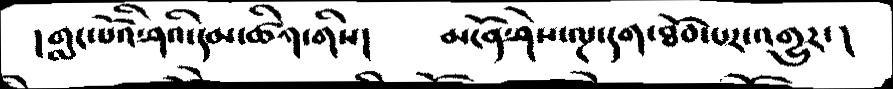། གླང་པོའི་ཤའི་དམ་ཚིག་གིས།   མངོན་ཤེས་ལྔ་དག་ཐོབ་པར་འགྱུར་།
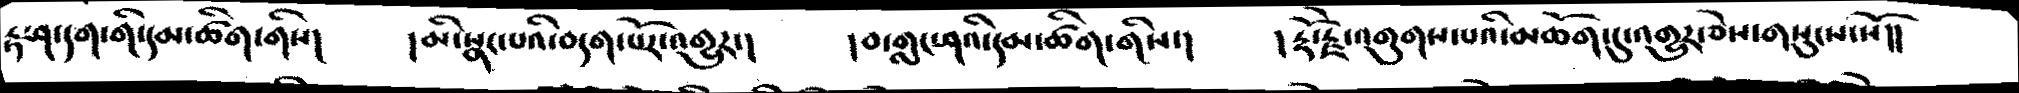རྟ་ཤ་དག་གི་དམ་ཚིག་གིས།   །མི་སྣང་པའི་བདག་པོར་འགྱུར།   །བ་གླང་ཤའི་དམ་ཚིག་གིས་།  །རྡོ་རྗེ་འགུགས་པའི་མཆོག་དུ་འགྱུར་ཅེས་གསུངས་སོ།།
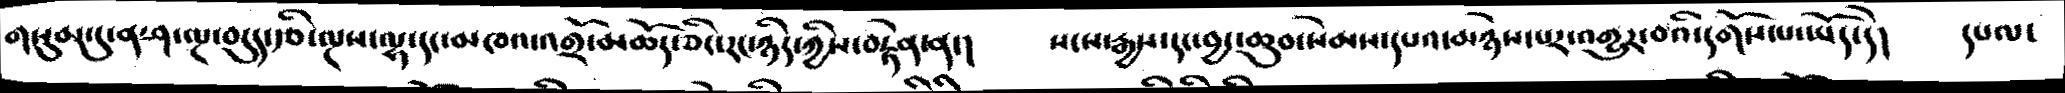གསུམ་དུ་ན་ཤ་ལྔ་བདུད་རྩི་ལྔས་ལྷ་དང་མཁའ་འགྲོ་མཆོད་ཅིང་རང་ཉིད་ཀྱིས་བརྟེན་ན་།   སངས་རྒྱས་དང་བྱང་ཆུབ་སེམས་དཔའ་མཉེས་པར་འགྱུར་བའི་དགོས་པ་ཡོད་དེ།   དཔལ་
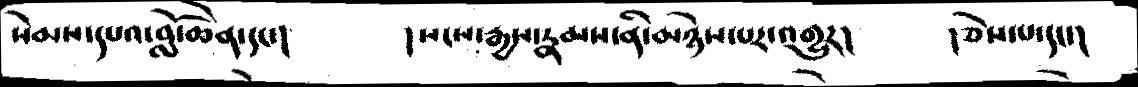སེམས་དཔའ་བློ་ཆེན་དང་།   །སངས་རྒྱས་རྣམས་ནི་མཉེས་པར་འགྱུར།    །ཅེས་པ་དང་།
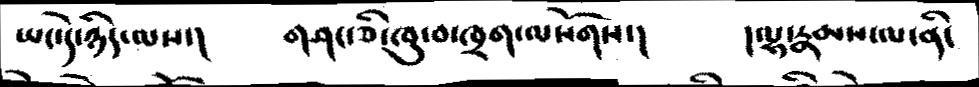ཡང་དེ་ཉིད་ལས་།   གཤང་ཅི་ཁུ་བ་ཁྲག་ལསོགས་།   །ལྷ་རྣམས་ལ་ནི་
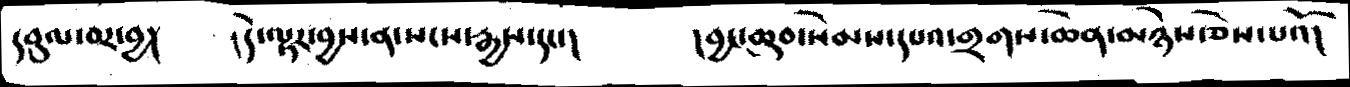དབུལ་བར་བྱ།   །དེ་ལྟར་བྱས་ན་སངས་རྒྱས་དང་།     །བྱང་ཆུབ་སེམས་དཔའ་གྲགས་ཆེན་མཉེས་ཅེས་པའོ།
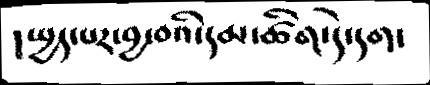།སྤྱད་པར་བྱ་བའི་དམ་ཚིག་དེ་དག་
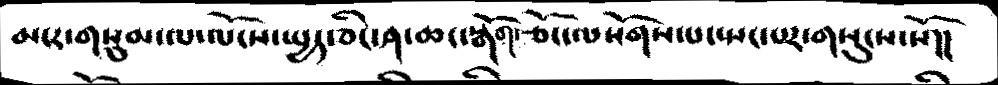མངར་གསུམ་ལ་ལོངས་སྤྱད་ཅིང་ཤ་ཆང་སྒོག་ཅོང་ལསོགས་པ་སྤང་པར་གསུངས་སོ།།
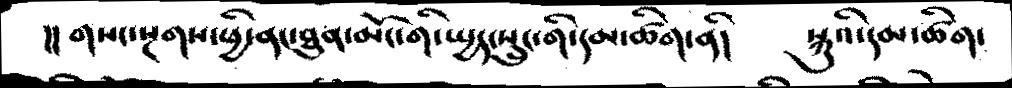།།གསང་སྔགས་ཕྱི་ནང་ཐུན་མོང་གི་སྤྱད་སྲུང་གི་དམ་ཚིག་ནི།   སྐུའི་དམ་ཚིག་
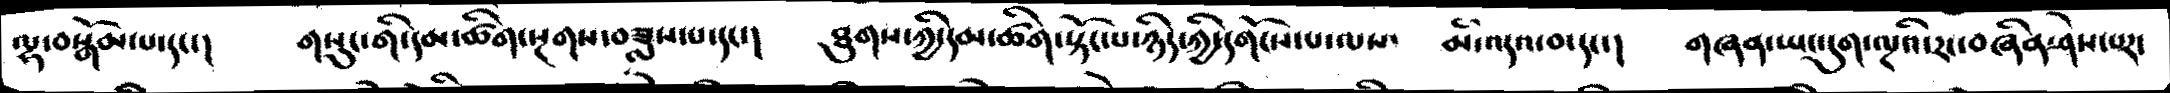ལྷ་བསྒོམ་པ་དང་།   གསུང་གི་དམ་ཚིག་སྔགས་བཟླས་པ་དང་།   ཐུགས་ཀྱི་དམ་ཚིག་སྟོང་པ་ཉིད་ཀྱི་དགོངས་པ་ལས་   མི་འདའ་བ་དང་།   གཞན་ཡང་དུག་ལྔའི་རང་བཞིན་ཤེས་པར་
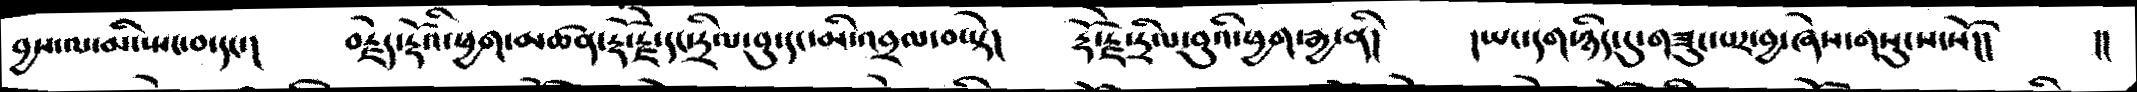བྱས་ལ་མི་སྤང་བ་དང་།   བརྗེད་རྡོའི་ཕྱག་མཚན་རྡོ་རྗེ་དང་དྲིལ་བུ་དང་མི་འབྲལ་བ་སྟེ།   རྡོ་རྗེ་དྲིལ་བུའི་ཕྱག་རྒྱ་ནི།   །ཡང་དག་ཉིད་དུ་གཟུང་པར་བྱ་ཞེས་གསུངས་སོ།།   །།
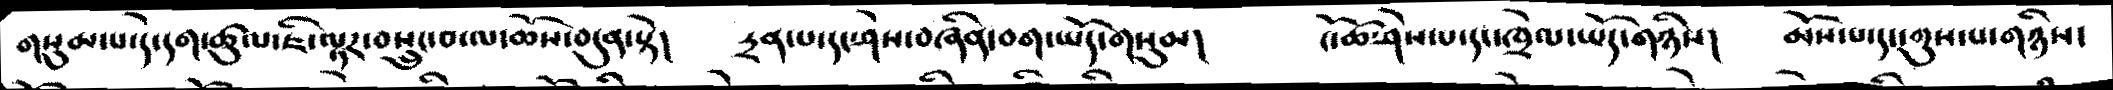གསུམ་པ་དེ་དག་ཚུལ་ཇི་ལྟར་བསྲུང་བ་ལ་ཆོས་བདུན་སྟེ།   དྲན་པ་དང་ཤེས་བཞིན་བག་ཡོད་གསུམ།   ངོ་ཚ་ཤེས་པ་དང་ཁྲེལ་ཡོད་གཉིས།   མོས་པ་དང་གུས་པ་གཉིས་
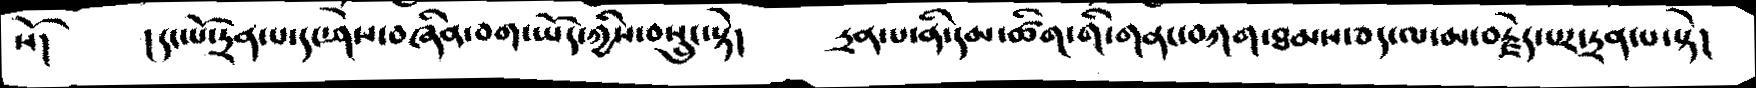སོ།   །དང་པོ་དྲན་པ་དང་ཤེས་བཞིན་བག་ཡོད་ཀྱིས་བསྲུང་སྟེ།   དྲན་པ་ནི་དམ་ཚིག་གི་གནང་བཀག་ཐམས་ཅད་ལ་མ་བརྗེད་པར་དྲན་པ་སྟེ།
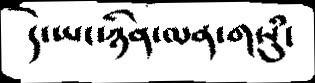དེ་ཡང་ཉིན་ལན་གསུཾ་
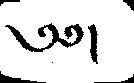༄༅།
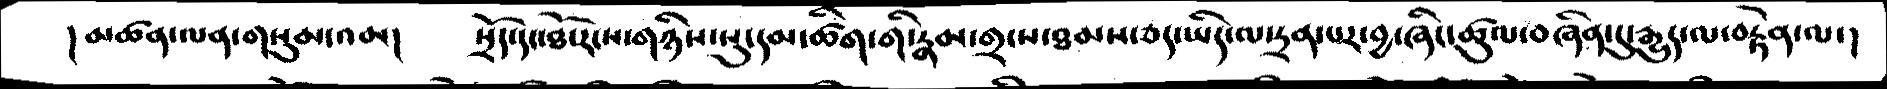།མཚན་ལན་གསུམ་འམ།  སྲོད་དང་ཐོ་རངས་གཉིས་སུ་དམ་ཚིག་གི་རྣམ་གྲངས་ཐམས་ཅད་ཡིད་ལ་དྲན་པར་བྱ་ཞིང་ཚུལ་བཞིན་དུ་རྒྱུད་ལ་བརྟེན་ལ་།
